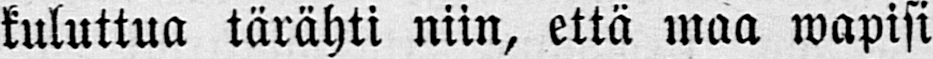kuluttua tärähti niin, että maa wapisi
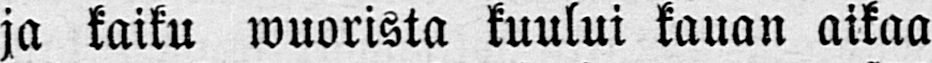ja kaiku wuorista kuului kauan aikaa
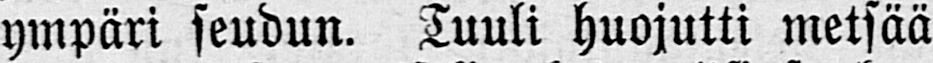ympäri seudun. Tuuli huojutti metsää
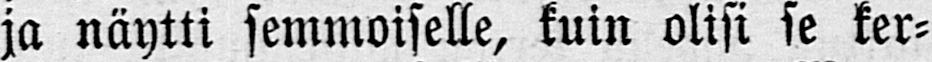ja näytti semmoiselle, kuin olisi se ker-
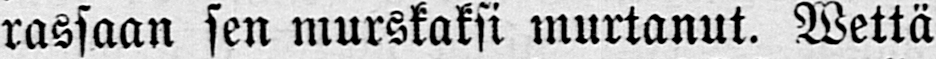rassaan sen murskaksi murtanut. Wettä
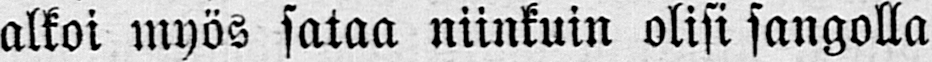alkoi myös sataa niinkuin olisi sangolla
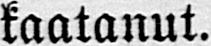kaatanut.
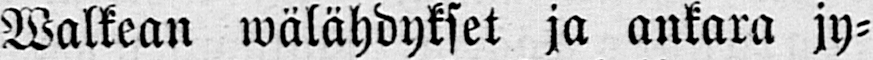Walkean wälähdykset ja ankara jy-
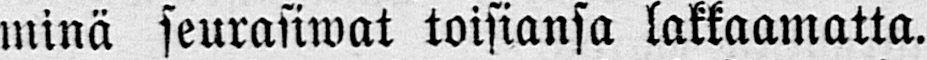minä seurasiwat toisiansa lakkaamatta.
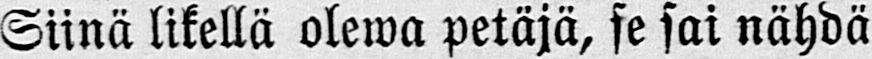Siinä likellä olewa petäjä, se sai nähdä
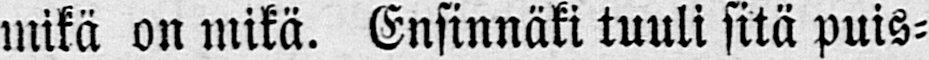mikä on mikä. Ensinnäki tuuli sitä puis-
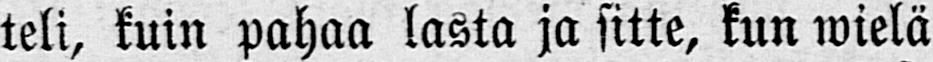teli, kuin pahaa lasta ja sitte, kun wielä
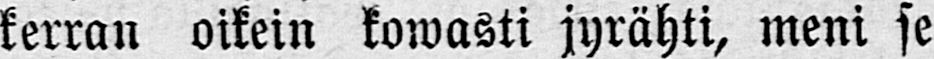kerran oikein kowasti jyrähti, meni se
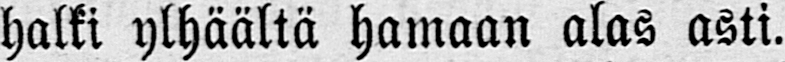halki ylhäältä hamaan alas asti.
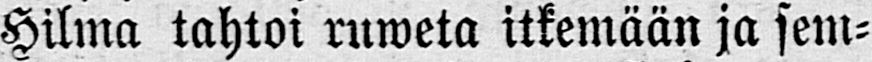Hilma tahtoi ruweta itkemään ja sem-
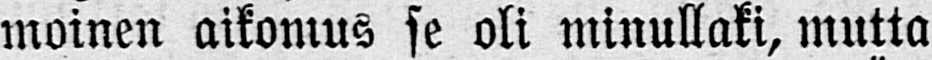moinen aikomus se oli minullaki, mutta
